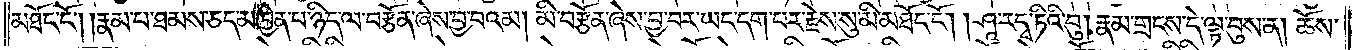མཐོང་ངོ༌། །རྣམ་པ་ཐམས་ཅད་མཁྱེན་པ་ཉིད་ལ་བརྩོན་ཞེས་བྱ་བའམ། མི་བརྩོན་ཞེས་བྱ་བར་ཡང་དག་པར་རྗེས་སུ་མི་མཐོང་ངོ༌། །ཤཱ་ར་དྭ་ཏིའི་བུ། རྣམ་གྲངས་དེ་ལྟ་བུས་ན། ཆོས་
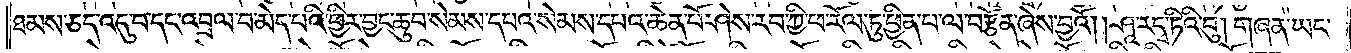ཐམས་ཅད་འདུ་བ་དང་འབྲལ་བ་མེད་པའི་ཕྱིར་བྱང་ཆུབ་སེམས་དཔའ་སེམས་དཔའ་ཆེན་པོ་ཤེས་རབ་ཀྱི་ཕ་རོལ་ཏུ་ཕྱིན་པ་ལ་བརྩོན་ཞེས་བྱའོ། །ཤཱ་རདྭ་ཏིའི་བུ། གཞན་ཡང་
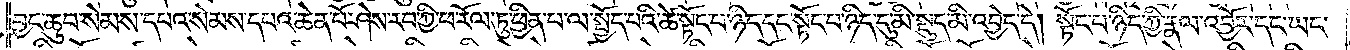བྱང་ཆུབ་སེམས་དཔའ་སེམས་དཔའ་ཆེན་པོ་ཤེས་རབ་ཀྱི་ཕ་རོལ་ཏུ་ཕྱིན་པ་ལ་སྤྱོད་པའི་ཚེ་སྟོང་པ་ཉིད་དང་སྟོང་པ་ཉིད་དུ་མི་སྡུད་མི་འབྱེད་དེ། སྟོང་པ་ཉིད་ཀྱི་རྣལ་འབྱོར་དང་ཡང་
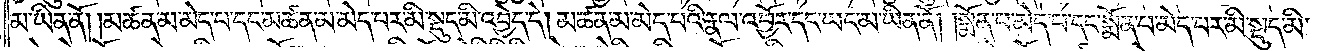མ་ཡིན་ནོ། །མཚན་མ་མེད་པ་དང་མཚན་མ་མེད་པར་མི་སྡུད་མི་འབྱེད་དེ། མཚན་མ་མེད་པའི་རྣལ་འབྱོར་དང་ཡང་མ་ཡིན་ནོ། །སྨོན་པ་མེད་པ་དང་སྨོན་པ་མེད་པར་མི་སྡུད་མི་
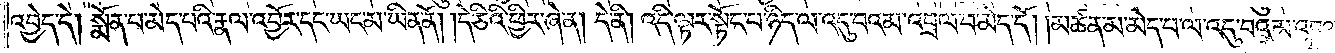འབྱེད་དེ། སྨོན་པ་མེད་པའི་རྣལ་འབྱོར་དང་ཡང་མ་ཡིན་ནོ། །དེ་ཅིའི་ཕྱིར་ཞེ་ན། དེ་ནི། འདི་ལྟར་སྟོང་པ་ཉིད་ལ་འདུ་བའམ་འབྲལ་བ་མེད་དོ། །མཚན་མ་མེད་པ་ལ་འདུ་བའམ་འབྲལ་
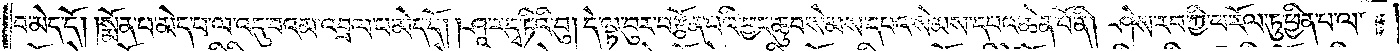བ་མེད་དོ། །སྨོན་པ་མེད་པ་ལ་འདུ་བའམ་འབྲལ་པ་མེད་དོ། །ཤཱ་ར་དྭ་ཏིའི་བུ། དེ་ལྟ་བུར་བརྩོན་པའི་བྱང་ཆུབ་སེམས་དཔའ་སེམས་དཔའ་ཆེན་པོ་ནི། ཤེས་རབ་ཀྱི་ཕ་རོལ་ཏུ་ཕྱིན་པ་ལ་
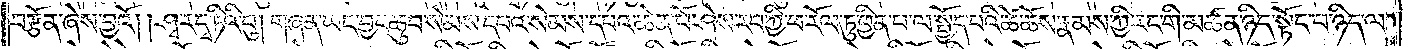བརྩོན་ཞེས་བྱའོ། །ཤྭ་ར་དྭ་ཏིའི་བུ། གཞན་ཡང་བྱང་ཆུབ་སེམས་དཔའ་སེམས་དཔའ་ཆེན་པོ་ཤེས་རབ་ཀྱི་ཕ་རོལ་ཏུ་ཕྱིན་པ་ལ་སྤྱོད་པའི་ཚེ་ཆོས་རྣམས་ཀྱི་རང་གི་མཚན་ཉིད་སྟོང་པ་ཉིད་ལ་
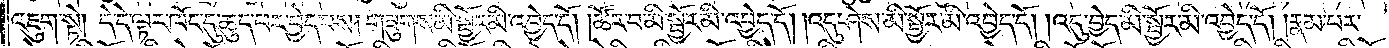འཇུག་སྟེ། དེ་དེ་ལྟར་ཁོང་དུ་ཆུད་པར་བྱེད་པས། གཟུགས་མི་སྦྱོར་མི་འབྱེད་དོ། །ཚོར་བ་མི་སྦྱོར་མི་འབྱེད་དོ། །འདུ་ཤེས་མི་སྦྱོར་མི་འབྱེད་དོ། །འདུ་བྱེད་མི་སྦྱོར་མི་འབྱེད་དོ། །རྣམ་པར་
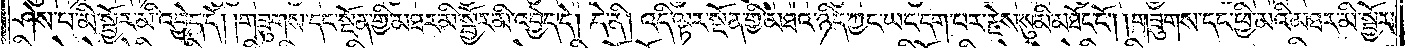ཤེས་པ་མི་སྦྱོར་མི་འབྱེད་དོ། །གཟུགས་དང་སྔོན་གྱི་མཐར་མི་སྦྱོར་མི་འབྱེད་དེ། དེ་ནི། འདི་ལྟར་སྔོན་གྱི་མཐའ་ཉིད་ཀྱང་ཡང་དག་པར་རྗེས་སུ་མི་མཐོང་ངོ༌། །གཟུགས་དང་ཕྱི་མའི་མཐར་མི་སྦྱོར་
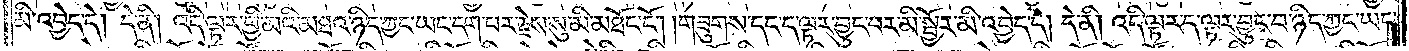མི་འབྱེད་དེ། དེ་ནི། འདི་ལྟར་ཕྱི་མའི་མཐའ་ཉིད་ཀྱང་ཡང་དག་པར་རྗེས་སུ་མི་མཐོང་ངོ༌། །གཟུགས་དང་ད་ལྟར་བྱུང་བར་མི་སྦྱོར་མི་འབྱེད་དེ། དེ་ནི། འདི་ལྟར་ད་ལྟར་བྱུང་བ་ཉིད་ཀྱང་ཡང་
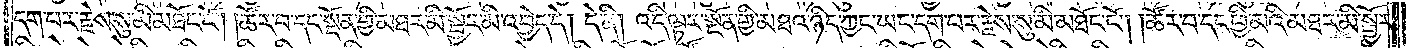དག་པར་རྗེས་སུ་མི་མཐོང་ངོ༌། །ཚོར་བ་དང་སྔོན་གྱི་མཐར་མི་སྦྱོར་མི་འབྱེད་དེ། དེ་ནི། འདི་ལྟར་སྔོན་གྱི་མཐའ་ཉིད་ཀྱང་ཡང་དག་པར་རྗེས་སུ་མི་མཐོང་ངོ༌། །ཚོར་བ་དང་ཕྱི་མའི་མཐར་མི་སྦྱོར་
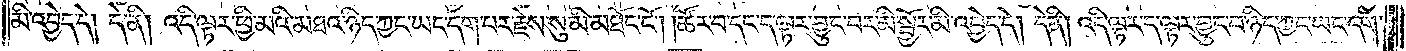མི་འབྱེད་དེ། དེ་ནི། འདི་ལྟར་ཕྱི་མའི་མཐའ་ཉིད་ཀྱང་ཡང་དག་པར་རྗེས་སུ་མི་མཐོང་ངོ༌། །ཚོར་བ་དང་ད་ལྟར་བྱུང་བར་མི་སྦྱོར་མི་འབྱེད་དེ། དེ་ནི། འདི་ལྟར་ད་ལྟར་བྱུང་བ་ཉིད་ཀྱང་ཡང་དག་
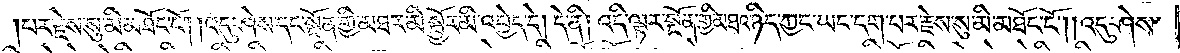པར་རྗེས་སུ་མི་མཐོང་ངོ༌། །འདུ་ཤེས་དང་སྔོན་གྱི་མཐར་མི་སྦྱོར་མི་འབྱེད་དེ། དེ་ནི། འདི་ལྟར་སྔོན་གྱི་མཐའ་ཉིད་ཀྱང་ཡང་དག་པར་རྗེས་སུ་མི་མཐོང་ངོ༌། །འདུ་ཤེས་
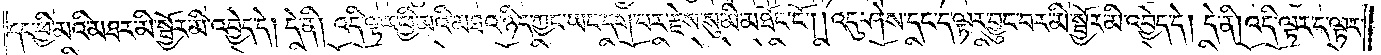དང་ཕྱི་མའི་མཐར་མི་སྦྱོར་མི་འབྱེད་དེ། དེ་ནི། འདི་ལྟར་ཕྱི་མའི་མཐའ་ཉིད་ཀྱང་ཡང་དག་པར་རྗེས་སུ་མི་མཐོང་ངོ༌། །འདུ་ཤེས་དང་ད་ལྟར་བྱུང་བར་མི་སྦྱོར་མི་འབྱེད་དེ། དེ་ནི། འདི་ལྟར་ད་ལྟར་
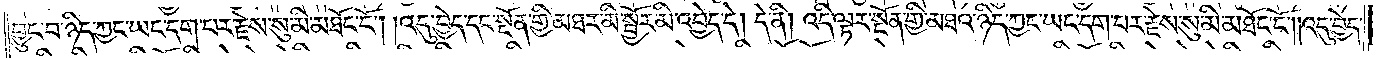བྱུང་བ་ཉིད་ཀྱང་ཡང་དག་པར་རྗེས་སུ་མི་མཐོང་ངོ༌། །འདུ་བྱེད་དང་སྔོན་གྱི་མཐར་མི་སྦྱོར་མི་འབྱེད་དེ། དེ་ནི། འདི་ལྟར་སྔོན་གྱི་མཐའ་ཉིད་ཀྱང་ཡང་དག་པར་རྗེས་སུ་མི་མཐོང་ངོ༌། །འདུ་བྱེད་
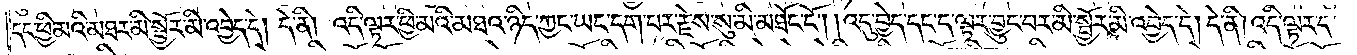དང་ཕྱི་མའི་མཐར་མི་སྦྱོར་མི་འབྱེད་དེ། དེ་ནི། འདི་ལྟར་ཕྱི་མའི་མཐའ་ཉིད་ཀྱང་ཡང་དག་པར་རྗེས་སུ་མི་མཐོང་ངོ༌། །འདུ་བྱེད་དང་ད་ལྟར་བྱུང་བར་མི་སྦྱོར་མི་འབྱེད་དེ། དེ་ནི། འདི་ལྟར་ད་
